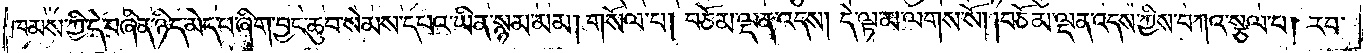ཁམས་ཀྱི་དེ་བཞིན་ཉིད་མེད་པ་ཞིག་བྱང་ཆུབ་སེམས་དཔའ་ཡིན་སྙམ་མམ། གསོལ་པ། བཅོམ་ལྡན་འདས། དེ་ལྟ་མ་ལགས་སོ། །བཅོམ་ལྡན་འདས་ཀྱིས་བཀའ་སྩལ་པ། རབ་
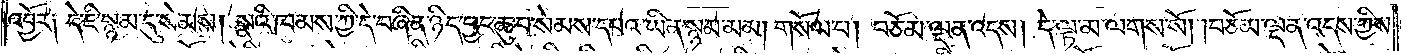འབྱོར༑ དེ་ཇི་སྙམ་དུ་སེམས། སྣའི་ཁམས་ཀྱི་དེ་བཞིན་ཉིད་བྱང་ཆུབ་སེམས་དཔའ་ཡིན་སྙམ་མམ། གསོལ་པ། བཅོམ་ལྡན་འདས། དེ་ལྟ་མ་ལགས་སོ། །བཅོམ་ལྡན་འདས་ཀྱིས་
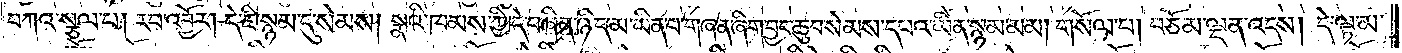བཀའ་སྩལ་པ། རབ་འབྱོར། དེ་ཇི་སྙམ་དུ་སེམས། སྣའི་ཁམས་ཀྱི་དེ་བཞིན་ཉིད་མ་ཡིན་པ་གཞན་ཞིག་བྱང་ཆུབ་སེམས་དཔའ་ཡིན་སྙམ་མམ། གསོལ་པ། བཅོམ་ལྡན་འདས། དེ་ལྟ་མ་
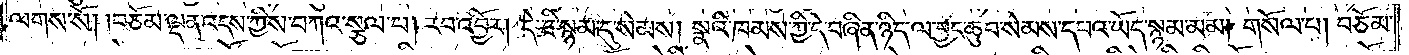ལགས་སོ། །བཅོམ་ལྡན་འདས་ཀྱིས་བཀའ་སྩལ་པ། རབ་འབྱོར། དེ་ཇི་སྙམ་དུ་སེམས། སྣའི་ཁམས་ཀྱི་དེ་བཞིན་ཉིད་ལ་བྱང་ཆུབ་སེམས་དཔའ་ཡོད་སྙམ་མམ། གསོལ་པ། བཅོམ་
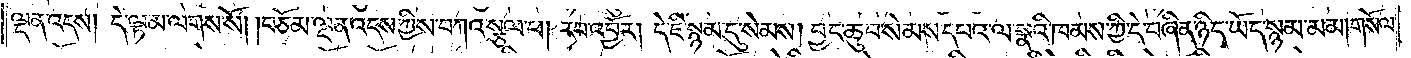ལྡན་འདས། དེ་ལྟ་མ་ལགས་སོ། །བཅོམ་ལྡན་འདས་ཀྱིས་བཀའ་སྩལ་པ། རབ་འབྱོར། དེ་ཇི་སྙམ་དུ་སེམས། བྱང་ཆུབ་སེམས་དཔའ་ལ་སྣའི་ཁམས་ཀྱི་དེ་བཞིན་ཉིད་ཡོད་སྙམ་མམ། གསོལ་
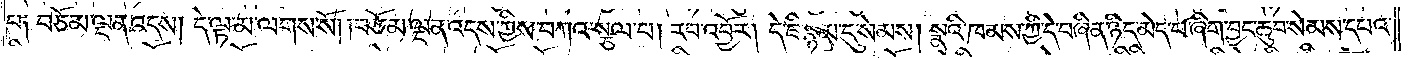པ༑ བཅོམ་ལྡན་འདས། དེ་ལྟ་མ་ལགས་སོ། །བཅོམ་ལྡན་འདས་ཀྱིས་བཀའ་སྩལ་པ། རབ་འབྱོར། དེ་ཇི་སྙམ་དུ་སེམས། སྣའི་ཁམས་ཀྱི་དེ་བཞིན་ཉིད་མེད་པ་ཞིག་བྱང་ཆུབ་སེམས་དཔའ་
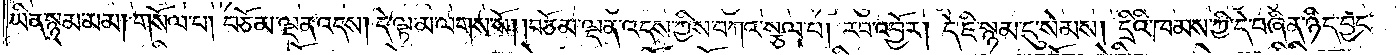ཡིན་སྙམ་མམ། གསོལ་པ། བཅོམ་ལྡན་འདས། དེ་ལྟ་མ་ལགས་སོ། །བཅོམ་ལྡན་འདས་ཀྱིས་བཀའ་སྩལ་པ། རབ་འབྱོར། དེ་ཇི་སྙམ་དུ་སེམས། དྲིའི་ཁམས་ཀྱི་དེ་བཞིན་ཉིད་བྱང་
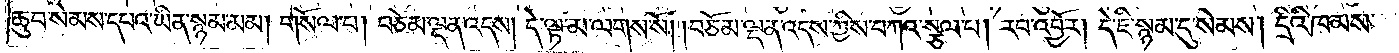ཆུབ་སེམས་དཔའ་ཡིན་སྙམ་མམ། གསོལ་པ། བཅོམ་ལྡན་འདས། དེ་ལྟ་མ་ལགས་སོ། །བཅོམ་ལྡན་འདས་ཀྱིས་བཀའ་སྩལ་པ། རབ་འབྱོར། དེ་ཇི་སྙམ་དུ་སེམས། དྲིའི་ཁམས་
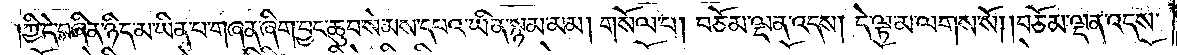ཀྱི་དེ་བཞིན་ཉིད་མ་ཡིན་པ་གཞན་ཞིག་བྱང་ཆུབ་སེམས་དཔའ་ཡིན་སྙམ་མམ། གསོལ་པ། བཅོམ་ལྡན་འདས། དེ་ལྟ་མ་ལགས་སོ། །བཅོམ་ལྡན་འདས་
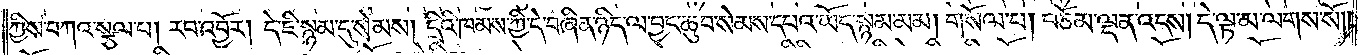ཀྱིས་བཀའ་སྩལ་པ། རབ་འབྱོར། དེ་ཇི་སྙམ་དུ་སེམས། དྲིའི་ཁམས་ཀྱི་དེ་བཞིན་ཉིད་ལ་བྱང་ཆུབ་སེམས་དཔའ་ཡོད་སྙམ་མམ། གསོལ་པ། བཅོམ་ལྡན་འདས། དེ་ལྟ་མ་ལགས་སོ༎
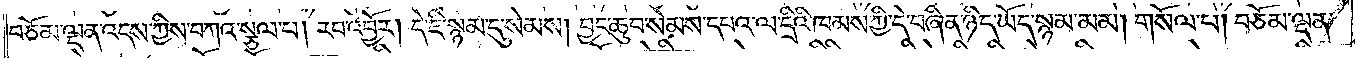བཅོམ་ལྡན་འདས་ཀྱིས་བཀའ་སྩལ་པ། རབ་འབྱོར། དེ་ཇི་སྙམ་དུ་སེམས། བྱང་ཆུབ་སེམས་དཔའ་ལ་དྲིའི་ཁམས་ཀྱི་དེ་བཞིན་ཉིད་ཡོད་སྙམ་མམ། གསོལ་པ། བཅོམ་ལྡན་
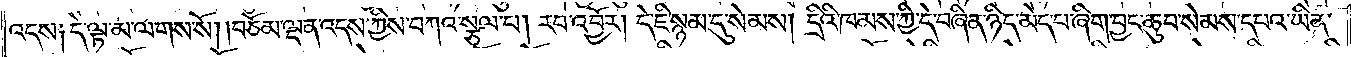འདས༑ དེ་ལྟ་མ་ལགས་སོ། །བཅོམ་ལྡན་འདས་ཀྱིས་བཀའ་སྩལ་པ། རབ་འབྱོར། དེ་ཇི་སྙམ་དུ་སེམས། དྲིའི་ཁམས་ཀྱི་དེ་བཞིན་ཉིད་མེད་པ་ཞིག་བྱང་ཆུབ་སེམས་དཔའ་ཡིན་
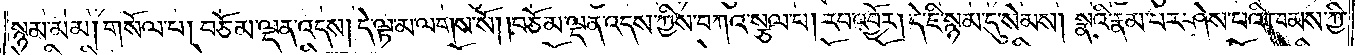སྙམ་མམ། གསོལ་པ། བཅོམ་ལྡན་འདས། དེ་ལྟ་མ་ལགས་སོ། །བཅོམ་ལྡན་འདས་ཀྱིས་བཀའ་སྩལ་པ། རབ་འབྱོར། དེ་ཇི་སྙམ་དུ་སེམས། སྣའི་རྣམ་པར་ཤེས་པའི་ཁམས་ཀྱི་
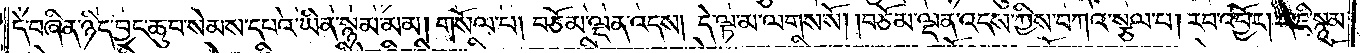དེ་བཞིན་ཉིད་བྱང་ཆུབ་སེམས་དཔའ་ཡིན་སྙམ་མམ། གསོལ་པ། བཅོམ་ལྡན་འདས། དེ་ལྟ་མ་ལགས་སོ། །བཅོམ་ལྡན་འདས་ཀྱིས་བཀའ་སྩལ་པ། རབ་འབྱོར། དེ་ཇི་སྙམ་
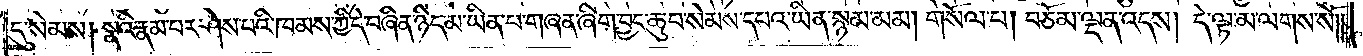དུ་སེམས། སྣའི་རྣམ་པར་ཤེས་པའི་ཁམས་ཀྱི་དེ་བཞིན་ཉིད་མ་ཡིན་པ་གཞན་ཞིག་བྱང་ཆུབ་སེམས་དཔའ་ཡིན་སྙམ་མམ། གསོལ་པ། བཅོམ་ལྡན་འདས། དེ་ལྟ་མ་ལགས་སོ༎
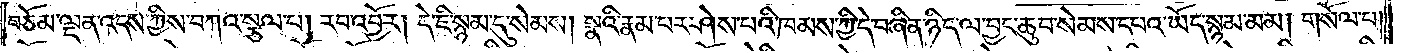བཅོམ་ལྡན་འདས་ཀྱིས་བཀའ་སྩལ་པ། རབ་འབྱོར། དེ་ཇི་སྙམ་དུ་སེམས། སྣའི་རྣམ་པར་ཤེས་པའི་ཁམས་ཀྱི་དེ་བཞིན་ཉིད་ལ་བྱང་ཆུབ་སེམས་དཔའ་ཡོད་སྙམ་མམ། གསོལ་པ།
